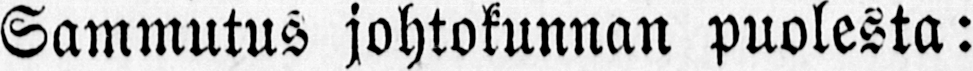Sammutus johtokunnan puolesta:
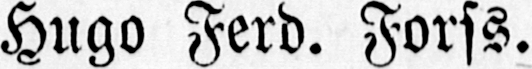Hugo Ferd. Forss.
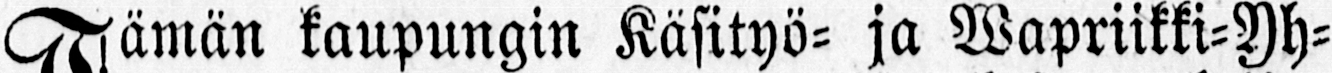Tämän kaupungin Käsityö- ja Wapriikki-Yh-
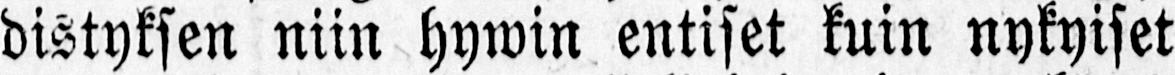distyksen niin hywin entiset kuin nykyiset
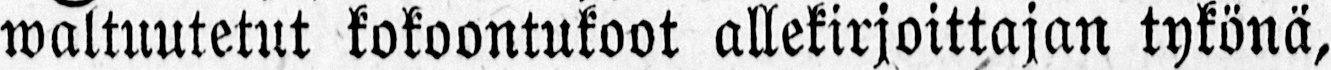waltuutetut kokoontukoot allekirjoittajan tykönä,
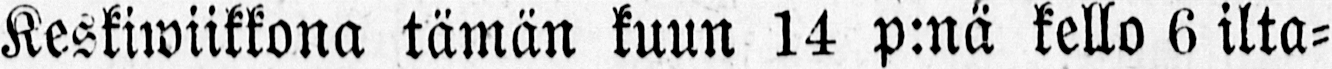Keskiwiikkona tämän kuun 14 p:nä kello 6 ilta-
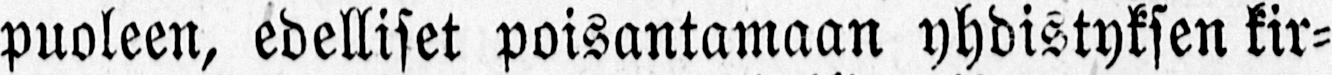puoleen, edelliset poisantamaan yhdistyksen kir-
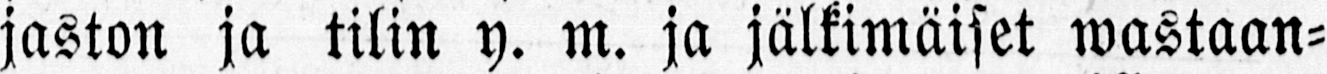jaston ja tilin y. m. ja jälkimäiset wastaan-
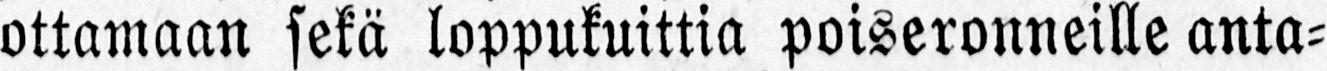ottamaan sekä loppukuittia poiseronneille anta-
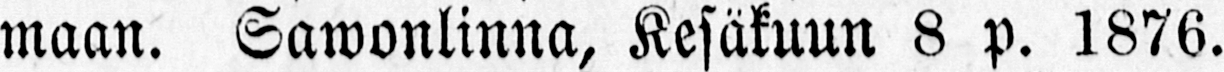maan. Sawonlinna, Kesäkuun 8 p. 1876.
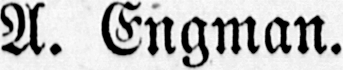A. Engman.
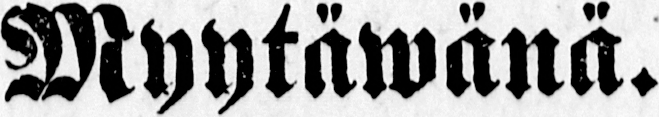Myytäwänä.
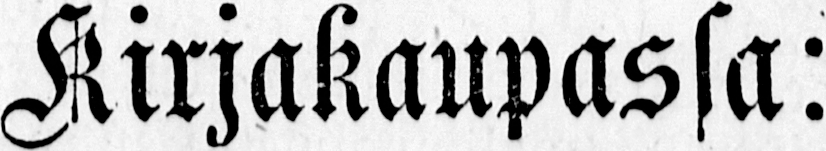Kirjakaupassa:
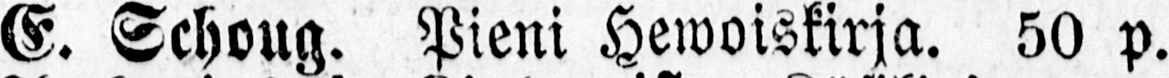E. Schoug. Pieni Hewoiskirja. 50 p.
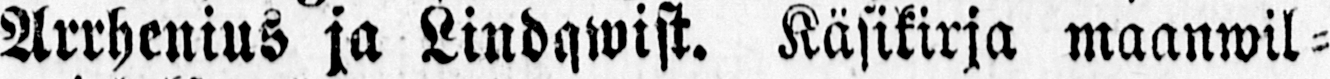Arrhenius ja Lindqwist. Käsikirja maanwil-
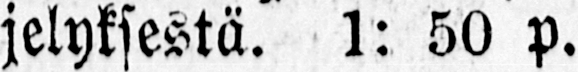jelyksestä. 1: 50 p.
